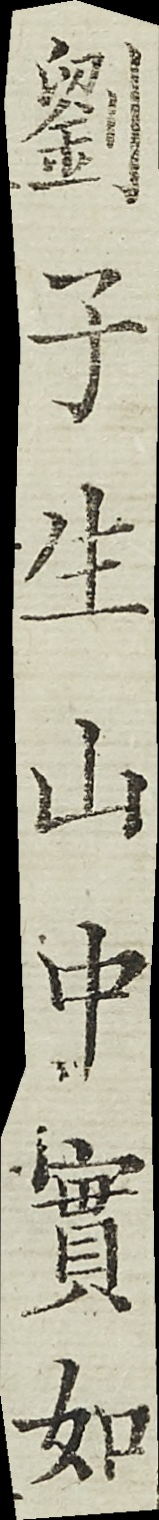劉子生山中實如
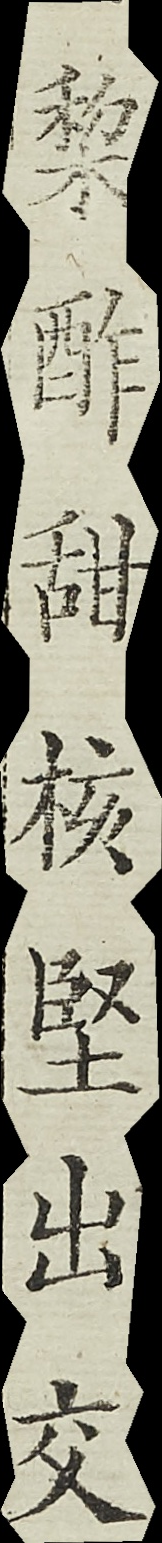棃酢甜核堅出交
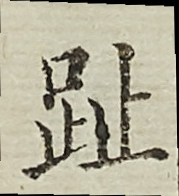趾
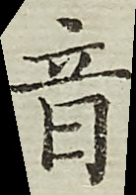音
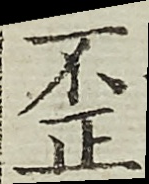歪
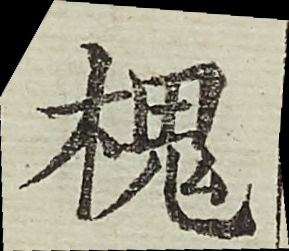槐
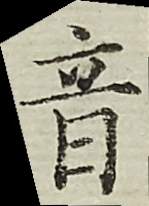音
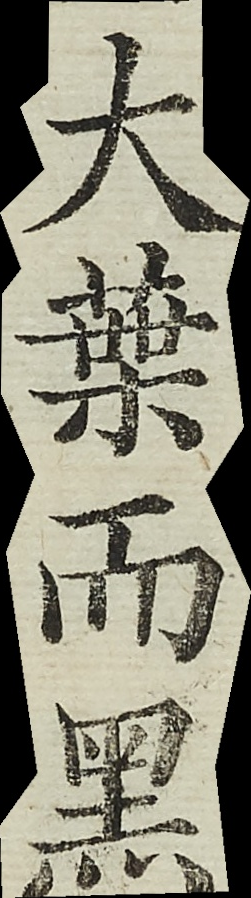大葉而黑
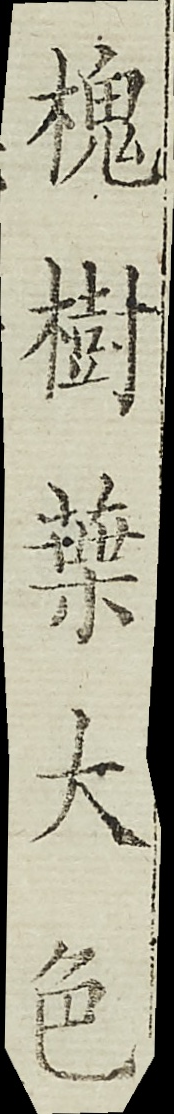槐樹葉大色
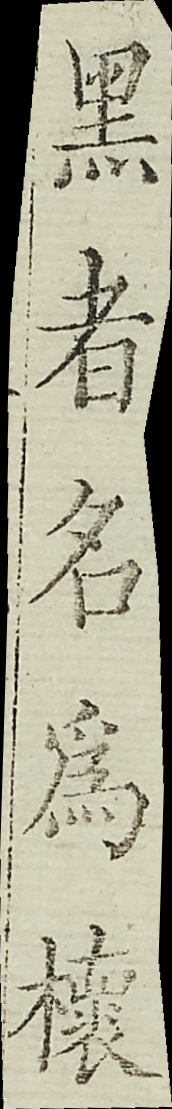黑者名為櫰
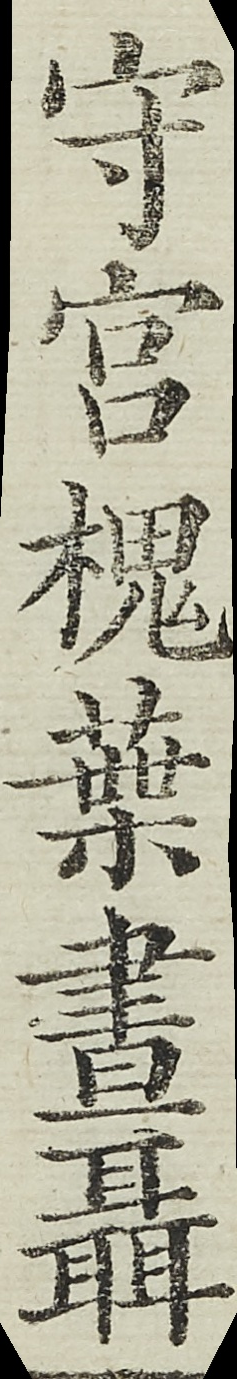守宮槐葉晝聶
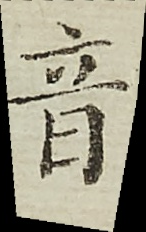音
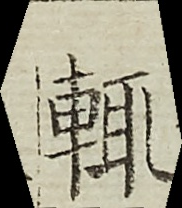輒
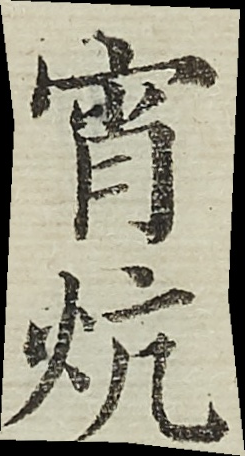宵炕
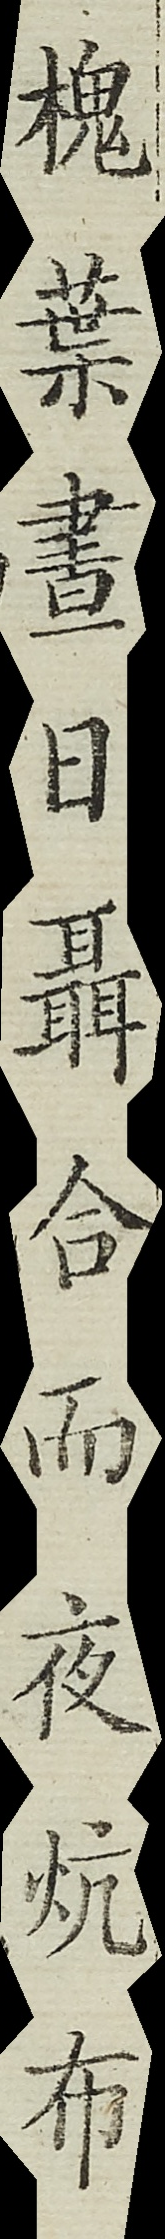槐葉晝日聶合而夜炕布
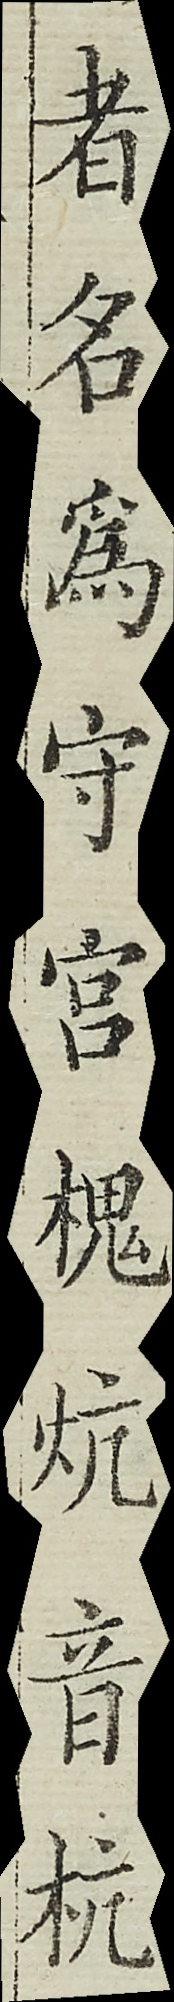者名為守宮槐炕音杭
